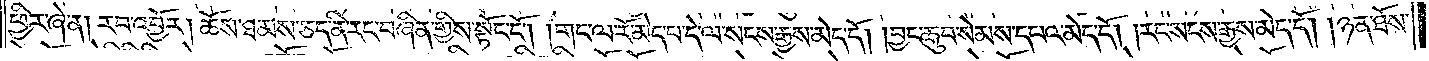ཕྱིར་ཞེ་ན། རབ་འབྱོར། ཆོས་ཐམས་ཅད་ནི་རང་བཞིན་གྱིས་སྟོང་ངོ༌། །གང་ལ་རོ་མེད་པ་དེ་ལ་སངས་རྒྱས་མེད་དོ། །བྱང་ཆུབ་སེམས་དཔའ་མེད་དོ། །རང་སངས་རྒྱས་མེད་དོ། །ཉན་ཐོས་
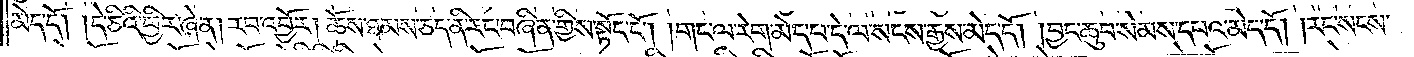མེད་དོ། །དེ་ཅིའི་ཕྱིར་ཞེ་ན། རབ་འབྱོར། ཆོས་ཐམས་ཅད་ནི་རང་བཞིན་གྱིས་སྟོང་ངོ༌། །གང་ལ་རེག་མེད་པ་དེ་ལ་སངས་རྒྱས་མེད་དོ། །བྱང་ཆུབ་སེམས་དཔའ་མེད་དོ། །རང་སངས་
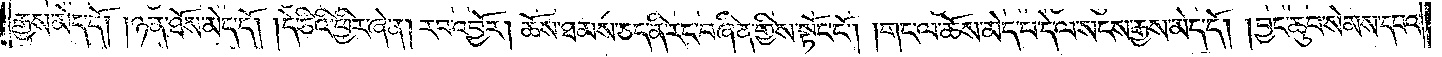རྒྱས་མེད་དོ། །ཉན་ཐོས་མེད་དོ། །དེ་ཅིའི་ཕྱིར་ཞེ་ན། རབ་འབྱོར། ཆོས་ཐམས་ཅད་ནི་རང་བཞིན་གྱིས་སྟོང་ངོ༌། །གང་ལ་ཆོས་མེད་པ་དེ་ལ་སངས་རྒྱས་མེད་དོ། །བྱང་ཆུབ་སེམས་དཔའ་
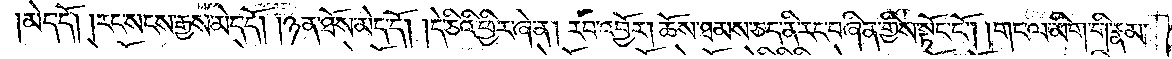མེད་དོ། །རང་སངས་རྒྱས་མེད་དོ། །ཉན་ཐོས་མེད་དོ། །དེ་ཅིའི་ཕྱིར་ཞེ་ན། རབ་འབྱོར། ཆོས་ཐམས་ཅད་ནི་རང་བཞིན་གྱིས་སྟོང་ངོ༌། །གང་ལ་མིག་གི་རྣམ་
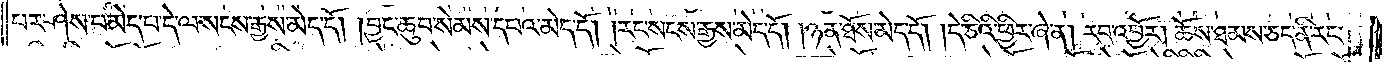པར་ཤེས་པ་མེད་པ་དེ་ལ་སངས་རྒྱས་མེད་དོ། །བྱང་ཆུབ་སེམས་དཔའ་མེད་དོ། །རང་སངས་རྒྱས་མེད་དོ། །ཉན་ཐོས་མེད་དོ། །དེ་ཅིའི་ཕྱིར་ཞེ་ན། རབ་འབྱོར། ཆོས་ཐམས་ཅད་ནི་རང་
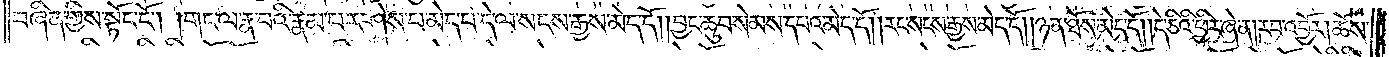བཞིན་གྱིས་སྟོང་ངོ༌། །གང་ལ་རྣ་བའི་རྣམ་པར་ཤེས་པ་མེད་པ་དེ་ལ་སངས་རྒྱས་མེད་དོ། །བྱང་ཆུབ་སེམས་དཔའ་མེད་དོ། །རང་སངས་རྒྱས་མེད་དོ། །ཉན་ཐོས་མེད་དོ། །དེ་ཅིའི་ཕྱིར་ཞེ་ན། རབ་འབྱོར། ཆོས་
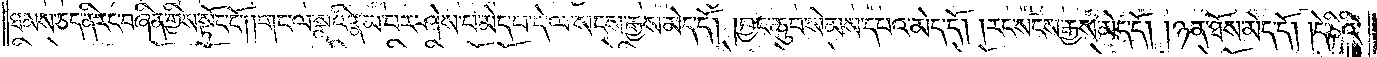ཐམས་ཅད་ནི་རང་བཞིན་གྱིས་སྟོང་ངོ༌། །གང་ལ་སྣའི་རྣམ་པར་ཤེས་པ་མེད་པ་དེ་ལ་སངས་རྒྱས་མེད་དོ། །བྱང་ཆུབ་སེམས་དཔའ་མེད་དོ། །རང་སངས་རྒྱས་མེད་དོ། །ཉན་ཐོས་མེད་དོ། །དེ་ཅིའི་
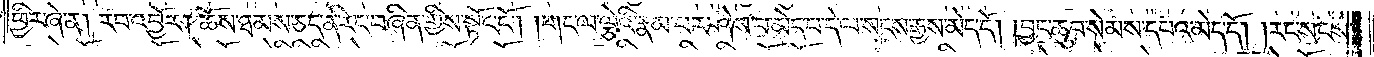ཕྱིར་ཞེ་ན། རབ་འབྱོར། ཆོས་ཐམས་ཅད་ནི་རང་བཞིན་གྱིས་སྟོང་ངོ༌། །གང་ལ་ལྕེའི་རྣམ་པར་ཤེས་པ་མེད་པ་དེ་ལ་སངས་རྒྱས་མེད་དོ། །བྱང་ཆུབ་སེམས་དཔའ་མེད་དོ། །རང་སངས་
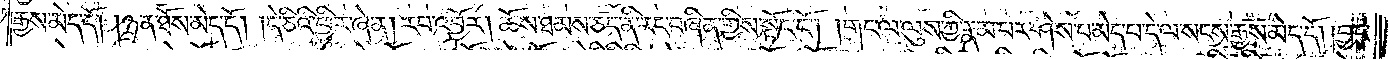རྒྱས་མེད་དོ། །ཉན་ཐོས་མེད་དོ། །དེ་ཅིའི་ཕྱིར་ཞེ་ན། རབ་འབྱོར། ཆོས་ཐམས་ཅད་ནི་རང་བཞིན་གྱིས་སྟོང་ངོ༌། །གང་ལ་ལུས་ཀྱི་རྣམ་པར་ཤེས་པ་མེད་པ་དེ་ལ་སངས་རྒྱས་མེད་དོ། །བྱང་
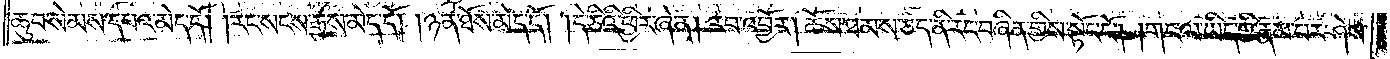ཆུབ་སེམས་དཔའ་མེད་དོ། །རང་སངས་རྒྱས་མེད་དོ། །ཉན་ཐོས་མེད་དོ། །དེ་ཅིའི་ཕྱིར་ཞེ་ན། རབ་འབྱོར། ཆོས་ཐམས་ཅད་ནི་རང་བཞིན་གྱིས་སྟོང་ངོ༌། །གང་ལ་ཡིད་ཀྱི་རྣམ་པར་ཤེས་
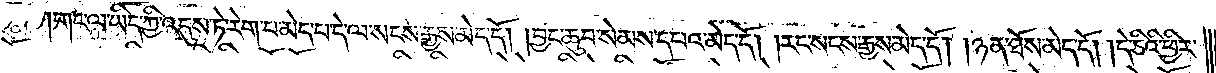གང་ལ་ཡིད་ཀྱི་འདུས་ཏེ་རེག་པ་མེད་པ་དེ་ལ་སངས་རྒྱས་མེད་དོ། །བྱང་ཆུབ་སེམས་དཔའ་མེད་དོ། །རང་སངས་རྒྱས་མེད་དོ། །ཉན་ཐོས་མེད་དོ། །དེ་ཅིའི་ཕྱིར་
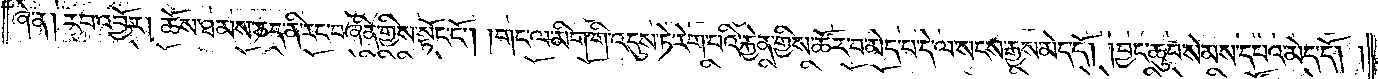ཞེ་ན། རབ་འབྱོར། ཆོས་ཐམས་ཅད་ནི་རང་བཞིན་གྱིས་སྟོང་ངོ༌། །གང་ལ་མིག་གི་འདུས་ཏེ་རེག་པའི་རྐྱེན་གྱིས་ཚོར་བ་མེད་པ་དེ་ལ་སངས་རྒྱས་མེད་དོ། །བྱང་ཆུབ་སེམས་དཔའ་མེད་དོ། །
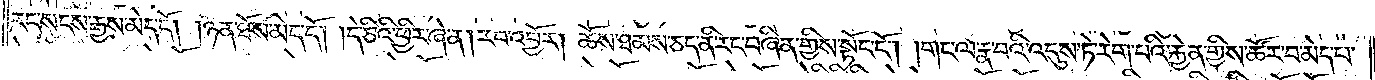རང་སངས་རྒྱས་མེད་དོ། །ཉན་ཐོས་མེད་དོ། །དེ་ཅིའི་ཕྱིར་ཞེ་ན། རབ་འབྱོར། ཆོས་ཐམས་ཅད་ནི་རང་བཞིན་གྱིས་སྟོང་ངོ༌། །གང་ལ་རྣ་བའི་འདུས་ཏེ་རེག་པའི་རྐྱེན་གྱིས་ཚོར་བ་མེད་པ་
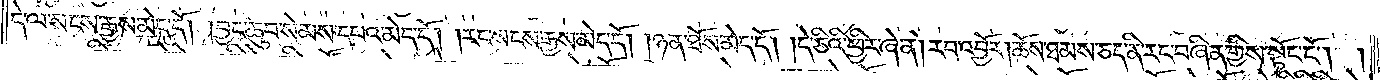དེ་ལ་སངས་རྒྱས་མེད་དོ། །བྱང་ཆུབ་སེམས་དཔའ་མེད་དོ། །རང་སངས་རྒྱས་མེད་དོ། །ཉན་ཐོས་མེད་དོ། །དེ་ཅིའི་ཕྱིར་ཞེ་ན། རབ་འབྱོར། ཆོས་ཐམས་ཅད་ནི་རང་བཞིན་གྱིས་སྟོང་ངོ༌། །
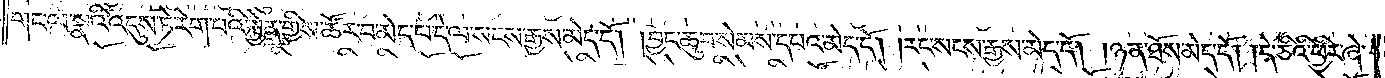གང་ལ་སྣའི་འདུས་ཏེ་རེག་པའི་རྐྱེན་གྱིས་ཚོར་བ་མེད་པ་དེ་ལ་སངས་རྒྱས་མེད་དོ། །བྱང་ཆུབ་སེམས་དཔའ་མེད་དོ། །རང་སངས་རྒྱས་མེད་དོ། །ཉན་ཐོས་མེད་དོ། །དེ་ཅིའི་ཕྱིར་ཞེ་
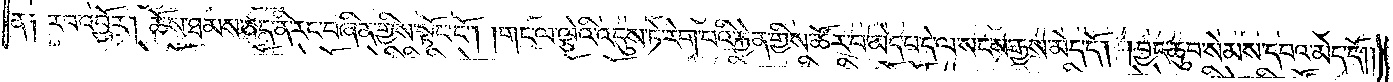ན༑ རབ་འབྱོར། ཆོས་ཐམས་ཅད་ནི་རང་བཞིན་གྱིས་སྟོང་ངོ༌། །གང་ལ་ལྕེའི་འདུས་ཏེ་རེག་པའི་རྐྱེན་གྱིས་ཚོར་བ་མེད་པ་དེ་ལ་སངས་རྒྱས་མེད་དོ། །བྱང་ཆུབ་སེམས་དཔའ་མེད་དོ། །
